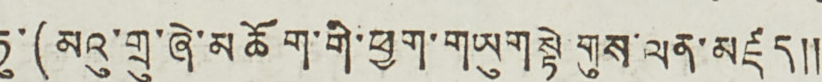ཏུ་(མའུ་གྲུ་ཞེ་མཆོག་གི་ཕྱག་གཡུག སྟེ གུས་ལན་མཛད༎
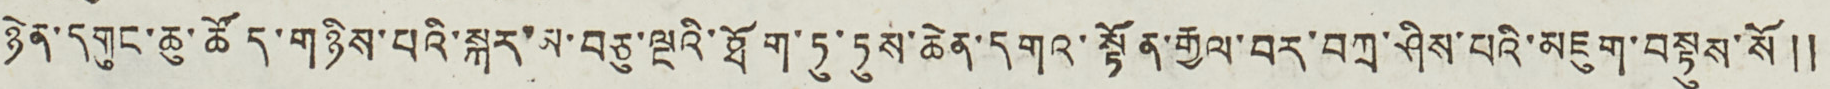ཉིན་དགུང་ཆུ་ཚོད་གཉིས་པའི་སྐར་མ་བཅུ་ལྔའི་ཐོག་ཏུ་དུས་ཆེན་དགའ་སྟོན་རྒྱལ་བར་བཀྲ་ཤིས་པའི་མཇུག་བསྡུས་སོ༎
